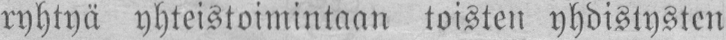ryhtyä yhteistoimintaan toisten yhdistysten
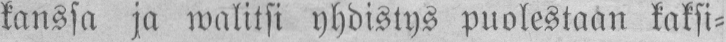kanssa ja walitsi yhdistys puolestaan kaksi-
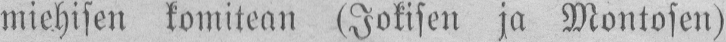miehisen komitean (Jokisen ja Montosen)
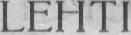OPETTAJAIN LEHTI.
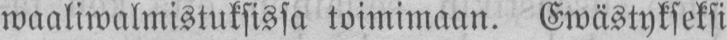waaliwalmistuksissa toimimaan. Ewästykseksi
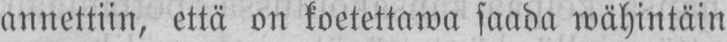annettiin, että on koetettawa saada wähintäin
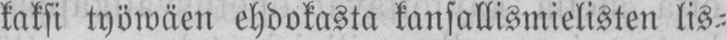kaksi työwäen ehdokasta kansallismielisten lis-
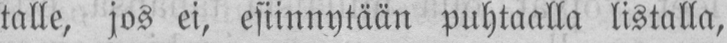talle, jos ei, esiinnytään puhtaalla listalla,
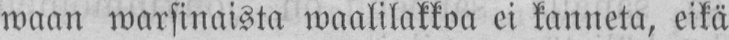waan warsinaista waalilakkoa ei kanneta, eikä
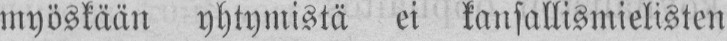myöskään yhtymistä ei kansallismielisten
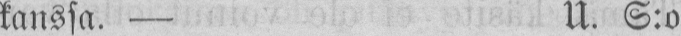kanssa. — U. S:o
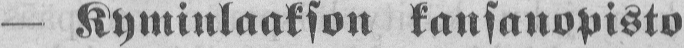— Kyminlaakson kansanopisto
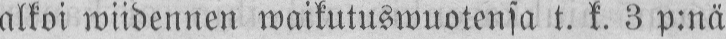alkoi wiidennen waikutuswuotensa t. k. 3 p:nä
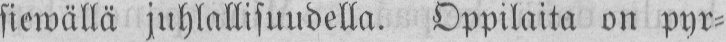siewällä juhlallisuudella. Oppilaita on pyr-
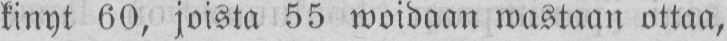kinyt 60, joista 55 woidaan wastaan ottaa,
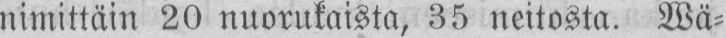nimittäin 20 nuorukaista, 35 neitosta. Wä-
